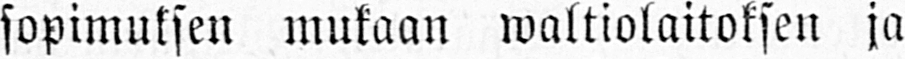sopimuksen mukaan waltiolaitoksen ja
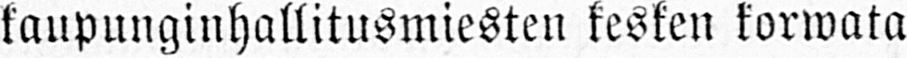kaupunginhallitusmiesten kesken korwata
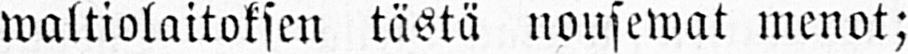waltiolaitoksen tästä nousewat menot;
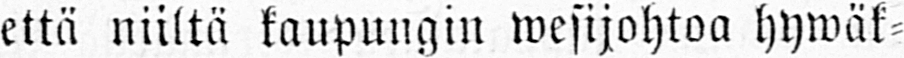että niiltä kaupungin wesijohtoa hywäk-
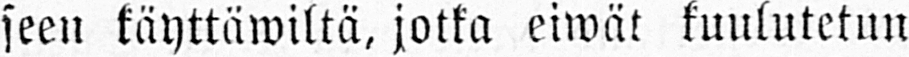seen käyttäwiltä, jotka eiwät kuulutetun
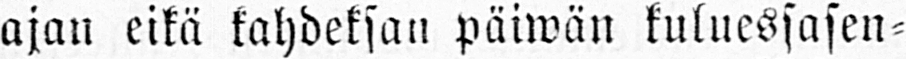ajan eikä kahdeksan päiwän kuluessasen-
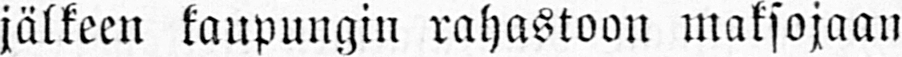jälkeen kaupungin rahastoon maksojaan
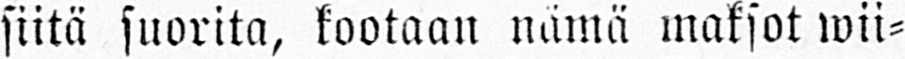siitä suorita, kootaan nämä maksot wii-
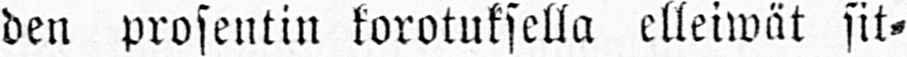den prosentin korotuksella elleiwät sit-
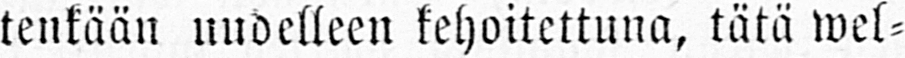tenkään uudelleen kehoitettuna, tätä wel-
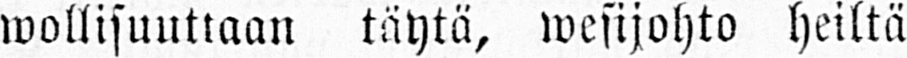wollisuuttaan täytä, wesijohto heiltä
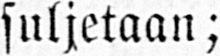suljetaan;
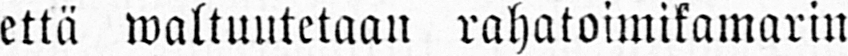että waltuutetaan rahatoimikamarin
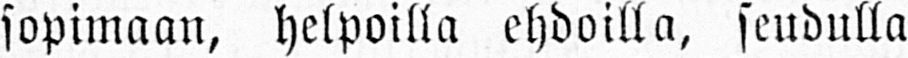sopimaan, helpoilla ehdoilla, seudulla
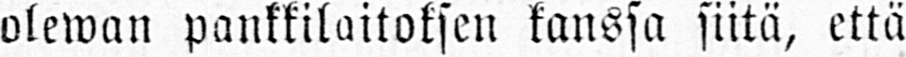olewan pankkilaitoksen kanssa siitä, että
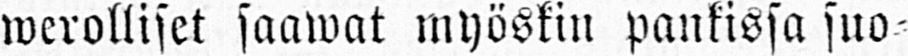werolliset saawat myöskin pankissa suo-
